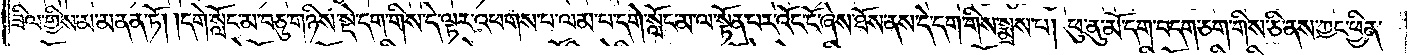ཟིལ་གྱིས་མ་མནན་ཏོ། །དགེ་སློང་མ་བཅུ་གཉིས་སྡེ་དག་གིས་དེ་ལྟར་འཕགས་པ་ལམ་པ་དགེ་སློང་མ་ལ་སྟོན་པར་འོང་ངོ་ཞེས་ཐོས་ནས་དེ་དག་གིས་སྨྲས་པ། ཕུ་ནུ་མོ་དག་བདག་ཅག་གིས་ཅི་ནས་ཀྱང་ཕྱིན་
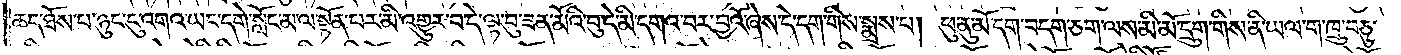ཆད་ཐོས་པ་ཉུང་ངུ་འགའ་ཡང་དགེ་སློང་མ་ལ་སྟོན་པར་མི་འགྱུར་བ་དེ་ལྟ་བུ་ཟན་མོའི་བུ་དེ་མི་དགའ་བར་བྱའོ་ཞེས་དེ་དག་གིས་སྨྲས་པ། ཕུ་ནུ་མོ་དག་བདག་ཅག་ལས་མི་མོ་དྲུག་གིས་ནི་ཡལ་ག་ཁྲུ་བཅུ་
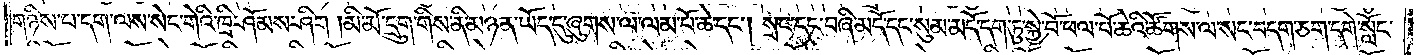གཉིས་པ་དག་ལས་སེང་གེའི་ཁྲི་ཤོམས་ཤིག །མི་མོ་དྲུག་གིས་ནི་མཉན་ཡོད་དུ་ཞུགས་ལ་ལམ་པོ་ཆེ་དང༌། སྲང་དང་བཞི་མདོ་དང་སུམ་མདོ་དག་ཏུ་སྐྱེ་བོ་ཕལ་པོ་ཆེའི་ཚོགས་ལ་སང་བདག་ཅག་དགེ་སློང་
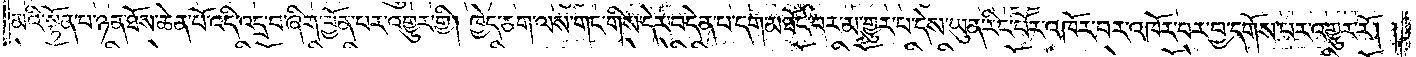མའི་སྟོན་པ་ཉན་ཐོས་ཆེན་པོ་འདི་འདྲ་བ་ཞིག་བྱོན་པར་འགྱུར་གྱི། ཁྱེད་ཅག་ལས་གང་གིས་དེར་བདེན་པ་དག་མཐོང་བར་མ་གྱུར་པ་དེས་ཡུན་རིང་པོར་འཁོར་བར་འཁོར་བར་བྱ་དགོས་པར་འགྱུར་རོ། །
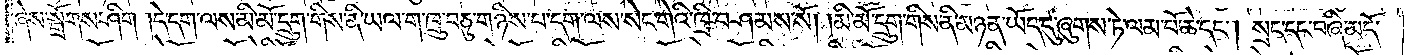ཞེས་སྒྲོགས་ཤིག །དེ་དག་ལས་མི་མོ་དྲུག་གིས་ནི་ཡལ་ག་ཁྲུ་བཅུ་གཉིས་པ་དག་ལས་སེང་གེའི་ཁྲི་བཤམས་སོ། །མི་མོ་དྲུག་གིས་ནི་མཉན་ཡོད་དུ་ཞུགས་ཏེ་ལམ་པོ་ཆེ་དང༌། སྲང་དང་བཞི་མདོ་
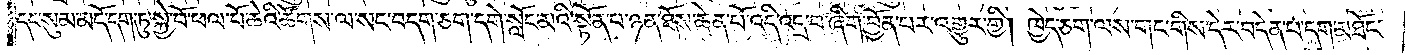དང་སུམ་མདོ་དག་ཏུ་སྐྱེ་བོ་ཕལ་པོ་ཆེའི་ཚོགས་ལ་སང་བདག་ཅག་དགེ་སློང་མའི་སྟོན་པ་ཉན་ཐོས་ཆེན་པོ་འདི་འདྲ་བ་ཞིག་བྱོན་པར་འགྱུར་གྱི། ཁྱེད་ཅག་ལས་གང་གིས་དེར་བདེན་པ་དག་མཐོང་
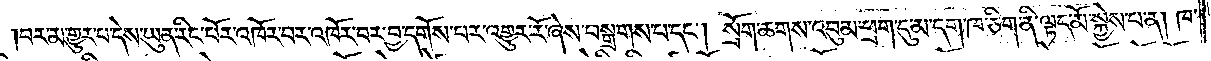བར་མ་གྱུར་པ་དེས་ཡུན་རིང་པོར་འཁོར་བར་འཁོར་བར་བྱ་དགོས་པར་འགྱུར་རོ་ཞེས་བསྒྲགས་པ་དང༌། སྲོག་ཆགས་འབུམ་ཕྲག་དུ་མ་དག་ཁ་ཅིག་ནི་ལྟད་མོ་སྐྱེས་པ་ན། ཁ་
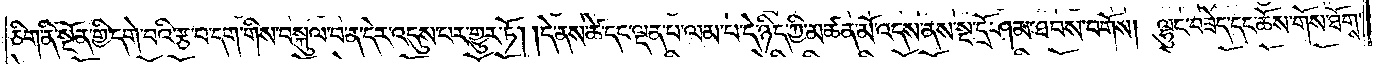ཅིག་ནི་སྔོན་གྱི་དགེ་བའི་རྩ་བ་དག་གིས་བསྐུལ་བ་ན་དེར་འདུས་པར་གྱུར་ཏོ། །དེ་ནས་ཚེ་དང་ལྡན་པ་ལམ་པ་དེ་ཉིད་ཀྱི་མཚན་མོ་འདས་ནས་སྔ་དྲོ་ཤམ་ཐབས་བགོས། ལྷུང་བཟེད་དང་ཆོས་གོས་ཐོགས་
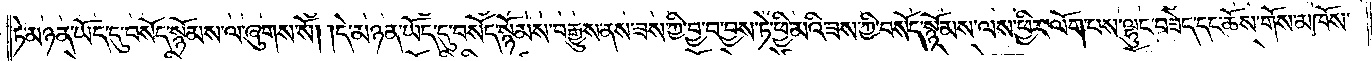ཏེ་མཉན་ཡོད་དུ་བསོད་སྙོམས་ལ་ཞུགས་སོ། །དེ་མཉན་ཡོད་དུ་བསོད་སྙོམས་བརྒྱུས་ནས་ཟས་ཀྱི་བྱ་བ་བྱས་ཏེ་ཕྱི་མའི་ཟས་ཀྱི་བསོད་སྙོམས་ལས་ཕྱིར་ལོག་པས་ལྷུང་བཟེད་དང་ཆོས་གོས་མཁོས་
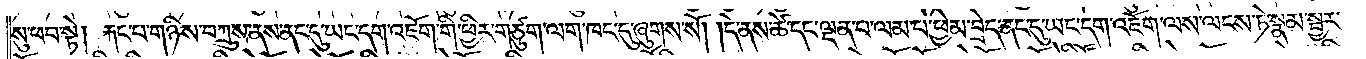སུ་ཕབ་སྟེ། རྐང་པ་གཉིས་བཀྲུས་ནས་ནང་དུ་ཡང་དག་འཇོག་གི་ཕྱིར་གཙུག་ལག་ཁང་དུ་ཞུགས་སོ། །དེ་ནས་ཚེ་དང་ལྡན་པ་ལམ་པ་ཕྱེ་མ་བྲེད་ནང་དུ་ཡང་དག་འཇོག་ལས་ལངས་ཏེ་སྣམ་སྦྱར་
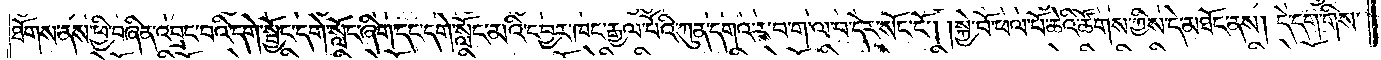ཐོགས་ནས་ཕྱི་བཞིན་འབྲང་བའི་དགེ་སྦྱོང་དགེ་སློང་ཞིག་དང་དགེ་སློང་མའི་དབྱར་ཁང་རྒྱལ་པོའི་ཀུན་དགའ་ར་བ་ག་ལ་བ་དེར་སོང་ངོ༌། །སྐྱེ་བོ་ཕལ་པོ་ཆེའི་ཚོགས་ཀྱིས་དེ་མཐོང་ནས། དེ་དག་གིས་
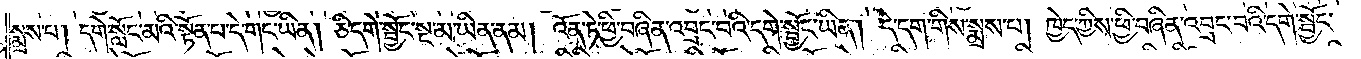སྨྲས་པ། དགེ་སློང་མའི་སྟོན་པ་དེ་གང་ཡིན། ཅི་དགེ་སྦྱོང་སྔ་མ་ཡིན་ནམ། འོན་ཏེ་ཕྱི་བཞིན་འབྲང་བའི་དགེ་སྦྱོང་ཡིན། དེ་དག་གིས་སྨྲས་པ། ཁྱེད་ཀྱིས་ཕྱི་བཞིན་འབྲང་བའི་དགེ་སྦྱོང་
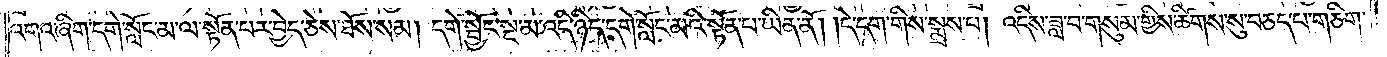འགའ་ཞིག་དགེ་སློང་མ་ལ་སྟོན་པར་བྱེད་ཅེས་ཐོས་སམ། དགེ་སྦྱོང་སྔ་མ་འདི་ཉིད་དགེ་སློང་མའི་སྟོན་པ་ཡིན་ནོ། །དེ་དག་གིས་སྨྲས་པ། འདིས་ཟླ་བ་གསུམ་གྱིས་ཚིགས་སུ་བཅད་པ་གཅིག་
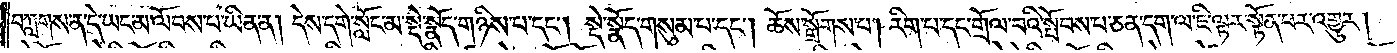བཀླགས་ན་དེ་ཡང་མ་ལོབས་པ་ཡིན་ན། དེས་དགེ་སློང་མ་སྡེ་སྣོད་གཉིས་པ་དང༌། སྡེ་སྣོད་གསུམ་པ་དང༌། ཆོས་སྒྲོགས་པ། རིག་པ་དང་གྲོལ་བའི་སྤོབས་པ་ཅན་དག་ལ་ཇི་ལྟར་སྟོན་པར་འགྱུར།
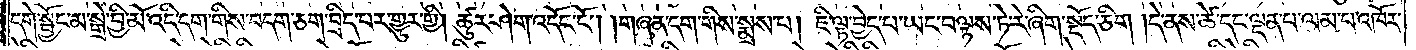དགེ་སྦྱོང་མ་སྒྲེ་བྱི་མོ་འདི་དག་གིས་བདག་ཅག་བྲིད་པར་གྱུར་གྱི། ཚུར་ཤེག་འདོང་ངོ༌། །གཞན་དག་གིས་སྨྲས་པ། ཇི་ལྟ་བྱེད་པ་ཡང་བལྟས་ཏེ་རེ་ཞིག་སྡོད་ཅིག །དེ་ནས་ཚེ་དང་ལྡན་པ་ལམ་པ་འཁོར་
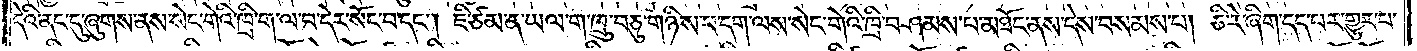དེའི་ནང་དུ་ཞུགས་ནས་སེང་གེའི་ཁྲི་ག་ལ་བ་དེར་སོང་བ་དང༌། ཇི་ཙམ་ན་ཡལ་ག་ཁྲུ་བཅུ་གཉིས་པ་དག་ལས་སེང་གེའི་ཁྲི་བཤམས་པ་མཐོང་ནས་དེས་བསམས་པ། ཅི་རེ་ཞིག་དད་པར་གྱུར་པ་
